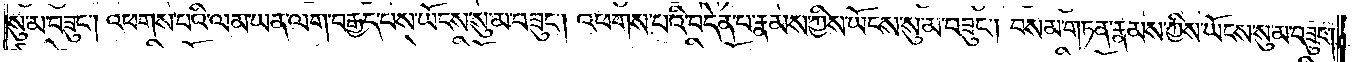སུ་མ་བཟུང༌། འཕགས་པའི་ལམ་ཡན་ལག་བརྒྱད་པས་ཡོངས་སུ་མ་བཟུང༌། འཕགས་པའི་བདེན་པ་རྣམས་ཀྱིས་ཡོངས་སུ་མ་བཟུང༌། བསམ་གཏན་རྣམས་ཀྱིས་ཡོངས་སུ་མ་བཟུང༌།
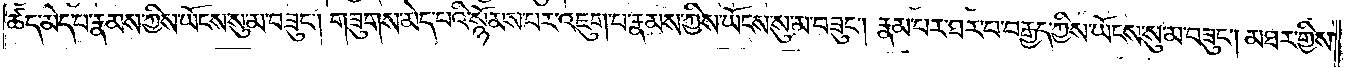ཚད་མེད་པ་རྣམས་ཀྱིས་ཡོངས་སུ་མ་བཟུང༌། གཟུགས་མེད་པའི་སྙོམས་པར་འཇུག་པ་རྣམས་ཀྱིས་ཡོངས་སུ་མ་བཟུང༌། རྣམ་པ་ཐར་པ་བརྒྱད་ཀྱིས་ཡོངས་སུ་མ་བཟུང༌། མཐར་གྱིས་
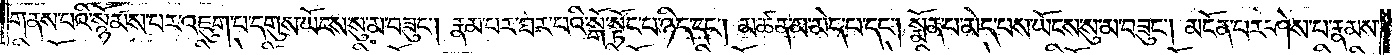གནས་པའི་སྙོམས་པར་འཇུག་པ་དགུས་ཡོངས་སུ་མ་བཟུང༌། རྣམ་པར་ཐར་པའི་སྒོ་སྟོང་པ་ཉིད་དང༌། མཚན་མ་མེད་པ་དང༌། སྨོན་པ་མེད་པས་ཡོངས་སུ་མ་བཟུང༌། མངོན་པ་ཤེས་པ་རྣམས་
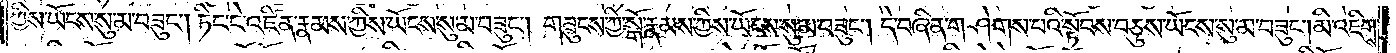ཀྱིས་ཡོངས་སུ་མ་བཟུང༌། ཏིང་ངེ་འཛིན་རྣམས་ཀྱིས་ཡོངས་སུ་མ་བཟུང༌། གཟུངས་ཀྱི་སྒོ་རྣམས་ཀྱི་ཡོངས་སུ་མ་བཟུང༌། དེ་བཞིན་གཤེགས་པའི་སྟོབས་བཅུས་ཡོངས་སུ་མ་བཟུང༌། མི་འཇིགས་
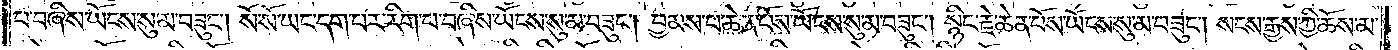པ་བཞིས་ཡོངས་སུ་མ་བཟུང༌། སོ་སོ་ཡང་དག་པར་རིག་པ་བཞིས་ཡོངས་སུ་མ་བཟུང༌། བྱམས་པ་ཆེན་པོས་ཡོངས་སུ་མ་བཟུང༌། སྙིང་རྗེ་ཆེན་པོས་ཡོངས་སུ་མ་བཟུང༌། སངས་རྒྱས་ཀྱི་ཆོས་མ་
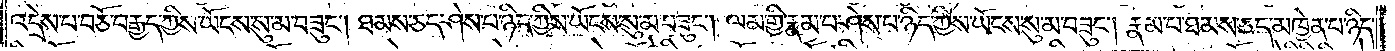འདྲེས་པ་བཅོ་བརྒྱད་ཀྱིས་ཡོངས་སུ་མ་བཟུང༌། ཐམས་ཅད་ཤེས་པ་ཉིད་ཀྱིས་ཡོངས་སུ་མ་བཟུང༌། ལམ་གྱི་རྣམ་པ་ཤེས་པ་ཉིད་ཀྱིས་ཡོངས་སུ་མ་བཟུང༌། རྣམ་པར་ཐམས་ཅད་མཁྱེན་པ་ཉིད་
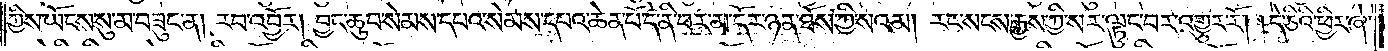ཀྱིས་ཡོངས་སུ་མ་བཟུང་ན། རབ་འབྱོར། བྱང་ཆུབ་སེམས་དཔའ་སེམས་དཔའ་ཆེན་པོ་དོན་བར་མ་དོར་ཉན་ཐོས་ཀྱི་སའམ། རང་སངས་རྒྱས་ཀྱི་སར་ལྟུང་བར་འགྱུར་རོ། །དེ་ཅིའི་ཕྱིར་ཞེ་
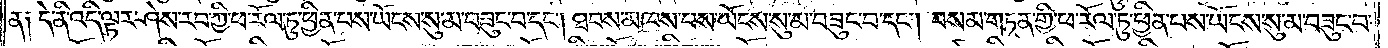ན། དེ་ནི་འདི་ལྟར་ཤེས་རབ་ཀྱི་ཕ་རོལ་ཏུ་ཕྱིན་པས་ཡོངས་སུ་མ་བཟུང་བ་དང༌། ཐབས་མཁས་པས་ཡོངས་སུ་མ་བཟུང་བ་དང༌། བསམ་གཏན་གྱི་ཕ་རོལ་ཏུ་ཕྱིན་པས་ཡོངས་སུ་མ་བཟུང་བ་
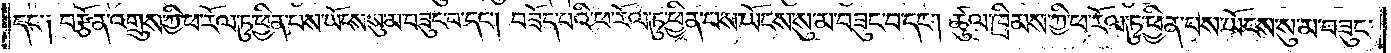དང༌། བརྩོན་འགྲུས་ཀྱི་ཕ་རོལ་ཏུ་ཕྱིན་པས་ཡོངས་སུ་མ་བཟུང་བ་དང༌། བཟོད་པའི་ཕ་རོལ་ཏུ་ཕྱིན་པས་ཡོངས་སུ་མ་བཟུང་བ་དང༌། ཚུལ་ཁྲིམས་ཀྱི་ཕ་རོལ་ཏུ་ཕྱིན་པས་ཡོངས་སུ་མ་བཟུང་
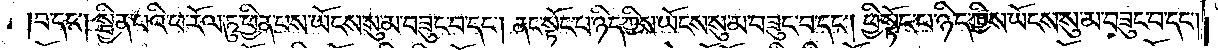བ་དང༌། སྦྱིན་པའི་ཕ་རོལ་ཏུ་ཕྱིན་པས་ཡོངས་སུ་མ་བཟུང་བ་དང༌། ནང་སྟོང་པ་ཉིད་ཀྱིས་ཡོངས་སུ་མ་བཟུང་བ་དང༌། ཕྱི་སྟོང་པ་ཉིད་ཀྱིས་ཡོངས་སུ་མ་བཟུང་བ་དང༌།
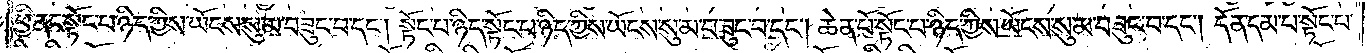ཕྱི་ནང་སྟོང་པ་ཉིད་ཀྱིས་ཡོངས་སུ་མ་བཟུང་བ་དང༌། སྟོང་པ་ཉིད་སྟོང་པ་ཉིད་ཀྱིས་ཡོངས་སུ་མ་བཟུང་བ་དང༌། ཆེན་པོ་སྟོང་པ་ཉིད་ཀྱིས་ཡོངས་སུ་མ་བཟུང་བ་དང༌། དོན་དམ་པ་སྟོང་པ་
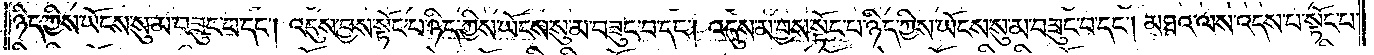ཉིད་ཀྱིས་ཡོངས་སུ་མ་བཟུང་བ་དང༌། འདུས་བྱས་སྟོང་པ་ཉིད་ཀྱིས་ཡོངས་སུ་མ་བཟུང་བ་དང༌། འདུས་མ་བྱས་སྟོང་པ་ཉིད་ཀྱིས་ཡོངས་སུ་མ་བཟུང་བ་དང༌། མཐའ་ལས་འདས་པ་སྟོང་པ་
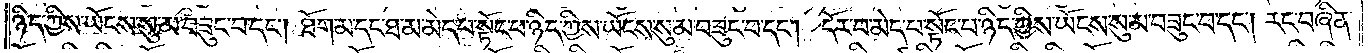ཉིད་ཀྱིས་ཡོངས་སུ་མ་བཟུང་བ་དང༌། ཐོག་མ་དང་ཐ་མ་མེད་པ་སྟོང་པ་ཉིད་ཀྱིས་ཡོངས་སུ་མ་བཟུང་བ་དང༌། དོར་བ་མེད་པ་སྟོང་པ་ཉིད་ཀྱིས་ཡོངས་སུ་མ་བཟུང་བ་དང༌། རང་བཞིན་
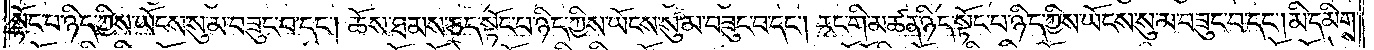སྟོང་པ་ཉིད་ཀྱིས་ཡོངས་སུ་མ་བཟུང་བ་དང༌། ཆོས་ཐམས་ཅད་སྟོང་པ་ཉིད་ཀྱིས་ཡོངས་སུ་མ་བཟུང་བ་དང༌། རང་གི་མཚན་ཉིད་སྟོང་པ་ཉིད་ཀྱིས་ཡོངས་སུ་མ་བཟུང་བ་དང༌། མི་དམིགས་
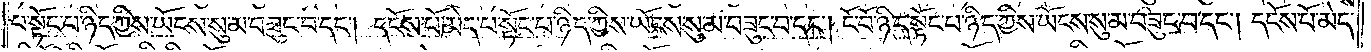པ་སྟོང་པ་ཉིད་ཀྱིས་ཡོངས་སུ་མ་བཟུང་བ་དང༌། དངོས་པོ་མེད་པ་སྟོང་པ་ཉིད་ཀྱིས་ཡོངས་སུ་མ་བཟུང་བ་དང༌། ངོ་བོ་ཉིད་སྟོང་པ་ཉིད་ཀྱིས་ཡོངས་སུ་མ་བཟུང་བ་དང༌། དངོས་པོ་མེད་
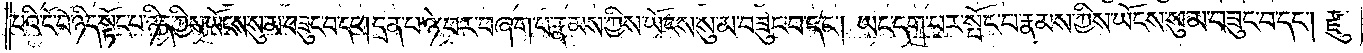པའི་ངོ་བོ་ཉིད་སྟོང་པ་ཉིད་ཀྱིས་ཡོངས་སུ་མ་བཟུང་བ་དང༌། དྲན་པ་ཉེ་བར་བཞག་པ་རྣམས་ཀྱིས་ཡོངས་སུ་མ་བཟུང་བ་དང༌། ཡང་དག་པར་སྤོང་བ་རྣམས་ཀྱིས་ཡོངས་སུ་མ་བཟུང་བ་དང༌། རྫུ་
